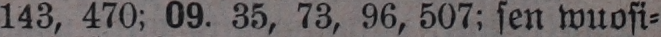143, 470; 09. 35, 73, 96, 507: sen wuosi-
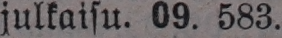julkaisu. 09. 583.
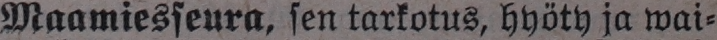Maamiesseura, sen tarkotus, hyöty ja wai-
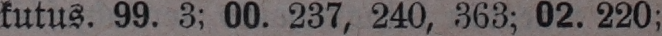kutus. 99. 3; 00. 237, 240, 363; 02. 220;
